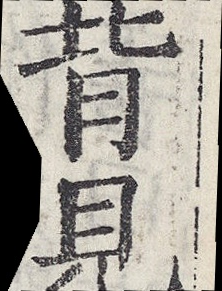背見
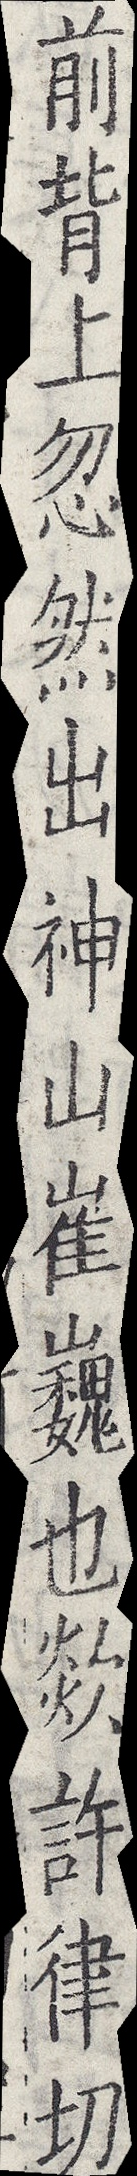前背上忽然出神山崔巍也欻許律切
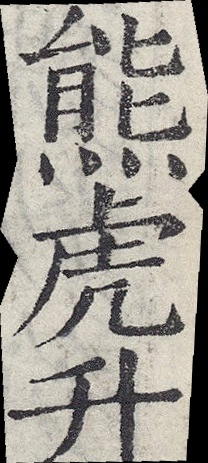熊虎升
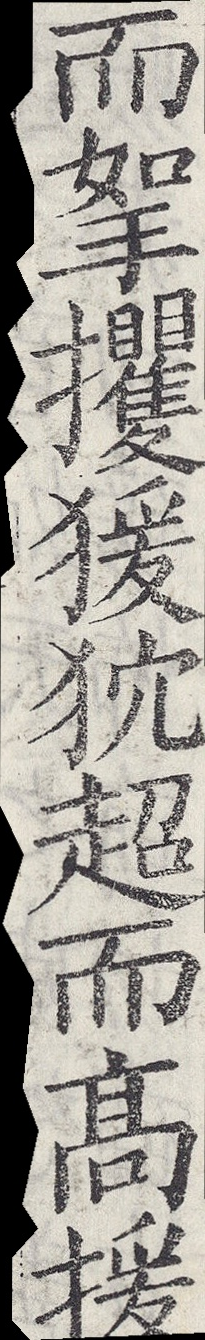而挐攫猨狖超而高援
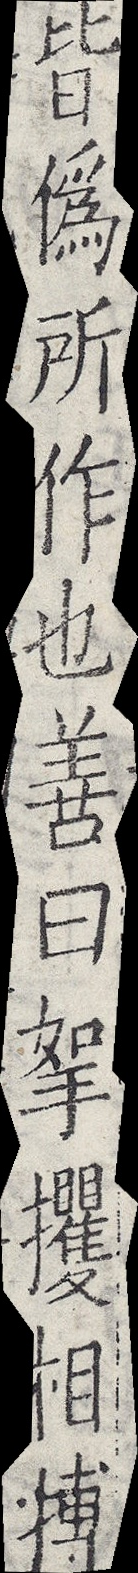皆偽所作也善曰挐攫相搏
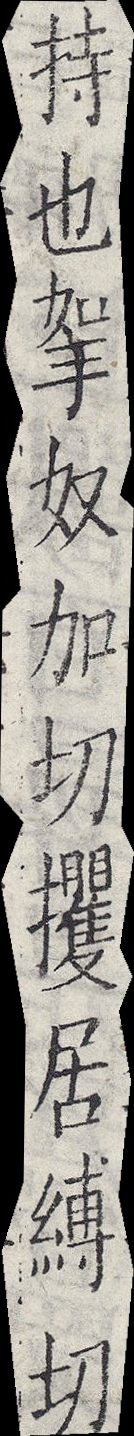持也挐奴加切攫居縛切
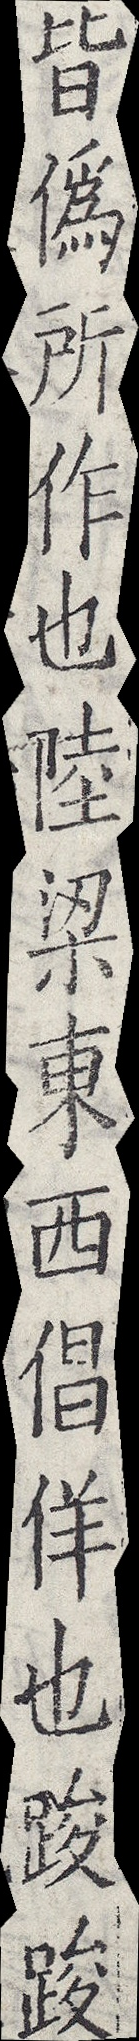皆偽所作也陸梁東西倡佯也踆踆
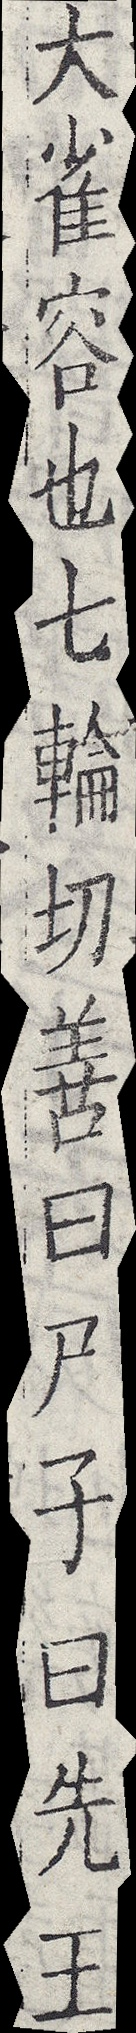大雀容也七輪切善曰尸子曰先王
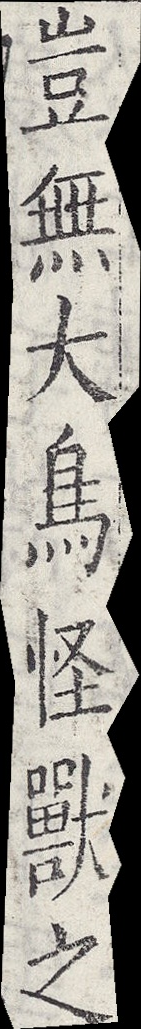豈無大鳥怪獸之
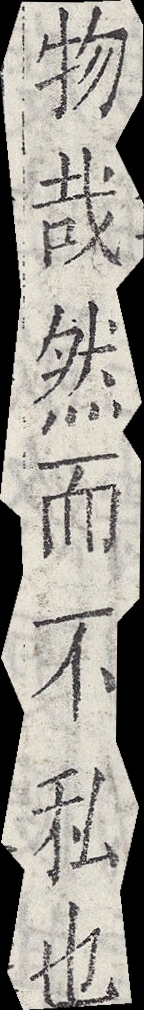物哉然而不私也
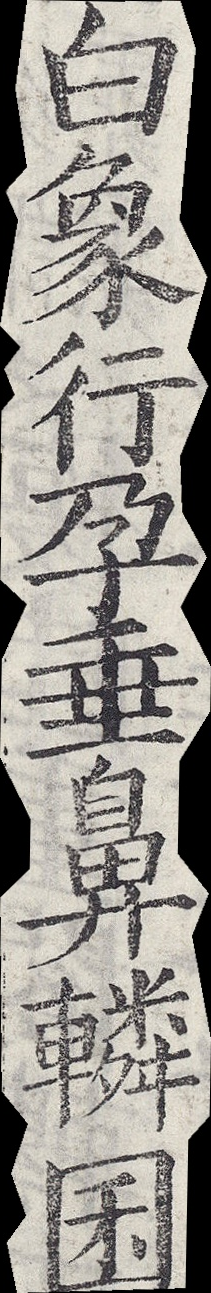白象行孕垂鼻轔囷
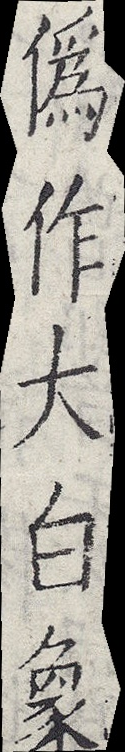偽作大白象
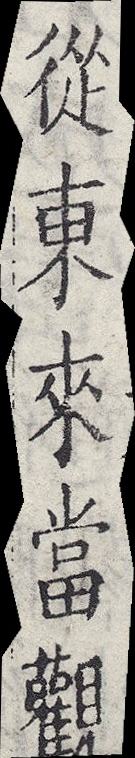從東來當觀
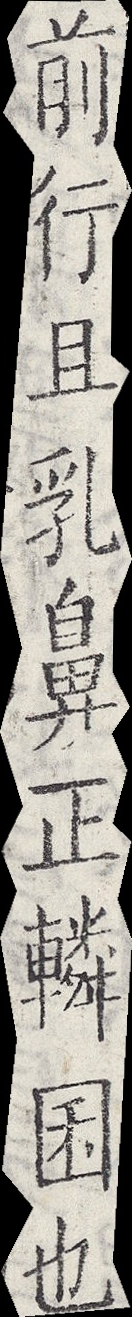前行且乳鼻正轔囷也
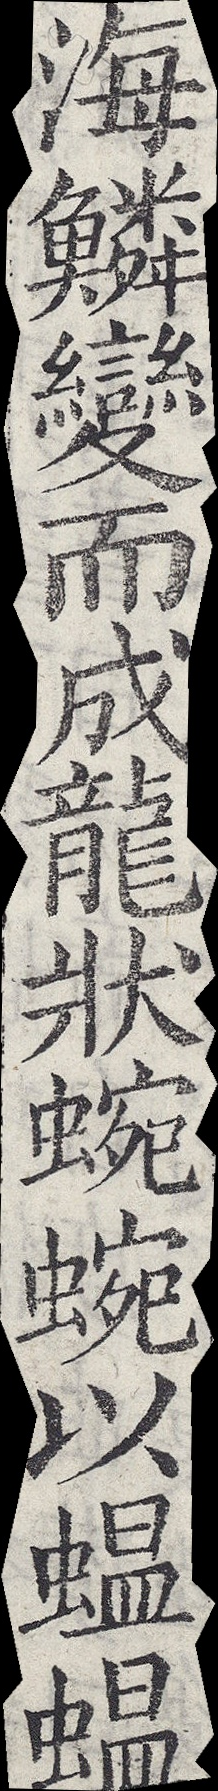海鱗變而成龍狀蜿蜿以蝹蝹
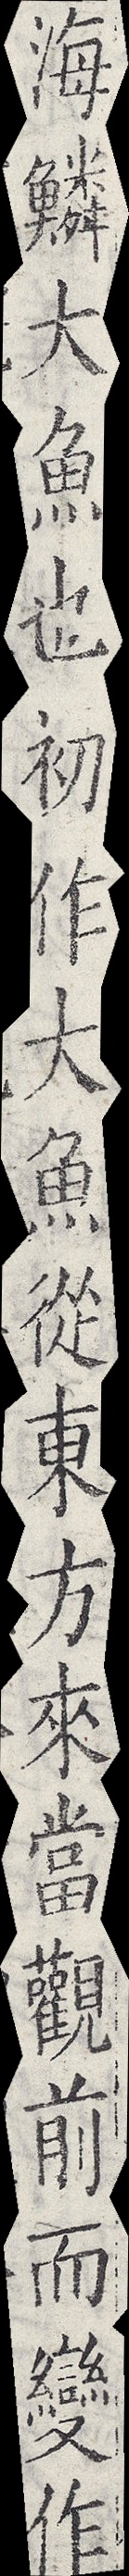海鱗大魚也初作大魚從東方來當觀前而變作
